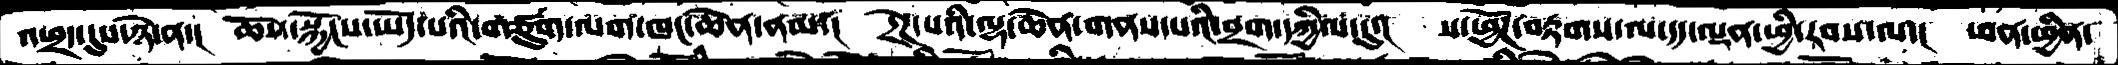འཕྲད་དུས་ཉེ་ན་།  ཆོས་སྐྱོངས་ཡོད་པའི་གཙུག་ལག་ཁང་ཆེན་ནམ་།  དྲེཌ་པའི་ལྷ་ཆེན་གནས་པའི་བྲག་དཀྱིལ་དུ་།  ས་ཕྱོཌ་བརྟགས་ལ་དད་ལྡན་ཕྱི་རབས་ལ་།  ཕན་ཕྱིན་
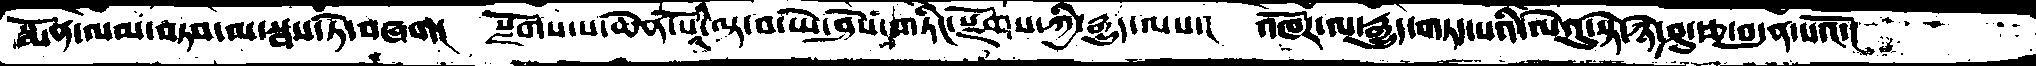སྨོན་ལམ་བཏབས་ལ་སྦས་ཏེ་བཞག།  སྫོགས་པ་ཆེན་པོའི་ལྟ་བ་ཡེ་ཤེས་གཏིང་སྫོགས་ཀྱི་རྒྱུད་ལས་།  འཁོར་ལ་རྒྱུད་གཏད་པའི་ལེའུ་སྟེ་ཉེ་ཤུ་རྩ་བདུན་པའོ་།
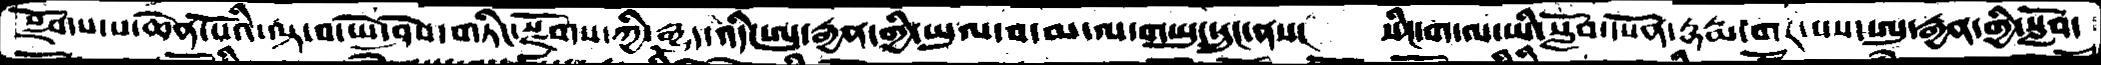སྫོགས་པ་ཆེན་པོའི་ལྟ་བ་ཡེ་ཤེས་གཏིང་སྫོགས་ཀྱི་རྒྱུད་འདི་ཨུ་རྒྱན་ཀྱི་ཡུལ་བ་མ་ལ་གཡུང་དྲུང་ནས་།  སིང་ག་ལ་ཡི་སློབ་དཔོན་དྷརྨ་གར་པས་ཨུ་རྒྱན་གྱི་སློབ་
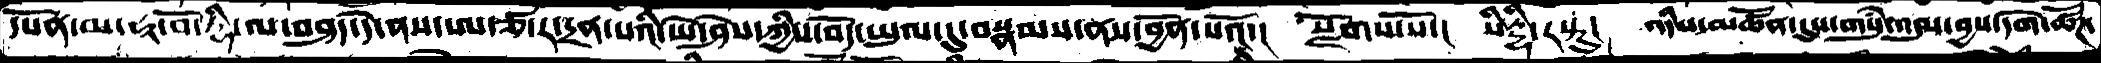དཔོན་མ་ཧཱ་བོ་དྷི་ལ་བཤད་དེ་ནས་ཨ་ཙ་ར་དྲན་པའི་ཡེ་ཤེས་ཀྱིས་བོད་ཡུལ་དུ་བསྣམས་ནས་བྱོན་པའོ་།  སྫོགས་སོ་།  སིརྡྷི་རསྟུ་།  འདིས་མཚོན་དུས་གསུཾ་འདུས་བྱས་དགེ་ཚོཌ་
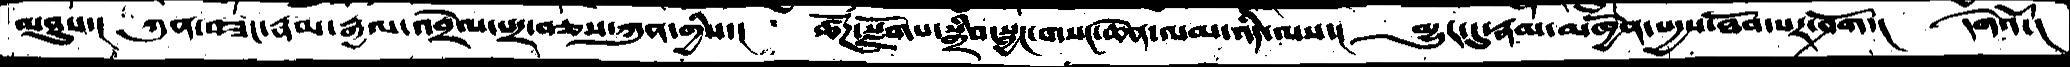མཐུས་།  ཀུན་བཟང་རྣམ་རྒྱལ་འབྲེལ་པར་བཅས་ཀུན་གྱིས་།  ཚོཌ་སྫོགས་སྒྲིབ་སྦྱང་གསང་ཆེན་ལམ་འདི་ལས་།  མྱུར་དུ་རྣམ་མཁྱེན་སདྱས་ཐོབ་པར་ཤོག་།  དགེའོ་།
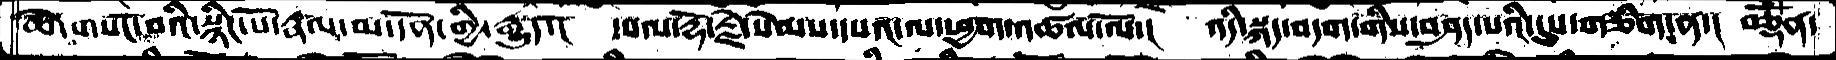ཚེ་གསང་བའི་སྙིང་པོ་རྣལ་མ་དོན་གྱི་རྒྱུད་།  དཔལ་རྡོ་རྗེ་སེམས་དཔའ་ལ་ཕྱག་འཚལ་ལོ་།  འདི་སྐད་བདག་གིས་བཤད་པའི་དུས་གཅིག་ན་།  བཅྡོཾན་
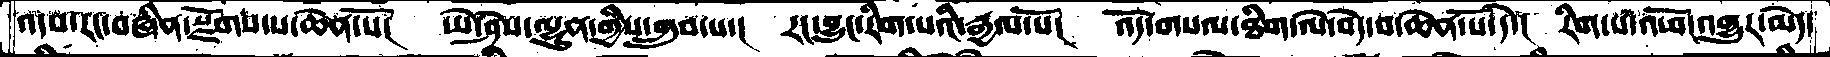འདས་རང་བཞིན་སྫོགས་པ་ཆེན་པོ།  ཡེ་ཤེས་ལྷུན་གྱིས་གྲུབ་པ་།  རང་བྱུང་རིག་པའི་རྒྱལ་པོ།  འོད་གསལ་ཐིག་ལེ་བདེ་བ་ཆེན་པོ་དེ་། རིག་པ་འཕོ་འགྱུར་མེད་
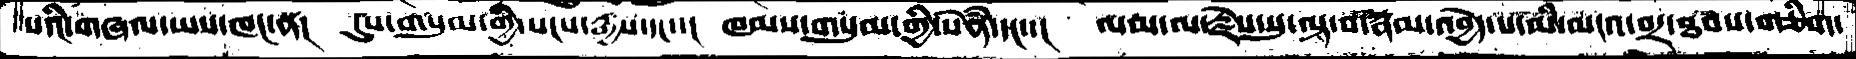པའི་གཞལ་ཡས་ཁང་ན།  དུས་གསུམ་གྱི་སངས་རྒྱས་དང་་།  ཁམས་གསུམ་གྱི་སེཾན་དང་་།  ལམ་ལ་རྗེས་སུ་ལྟ་བ་རྣམ་འབྱེད་པ་མི་མངའ་བར་ཐབས་གཅིག་
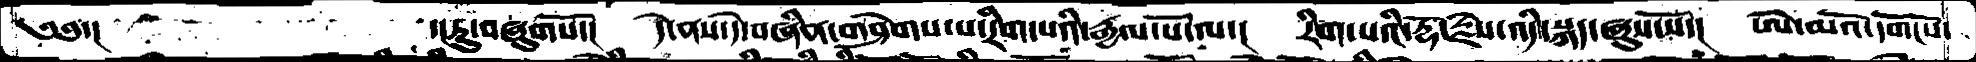༄༅་།       ་།ཏུ་བཞུགསོ་།   དེ་ནས་དེ་བཞིན་གཤེགས་པ་རིག་པའི་རྒྱལ་པོ་ལ་།   རིག་པའི་རྡོ་རྗེས་འདི་སྐད་ཞུས་སོ་།   ཨེ་མའོ་དགོངས་
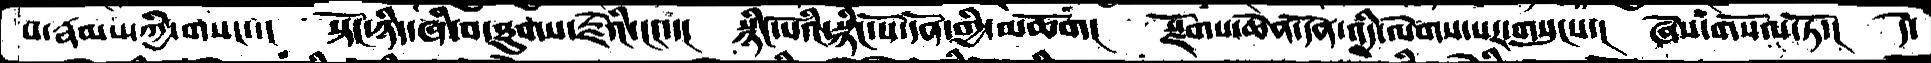པ་རྣམས་ཀྱི་གསང་་།   སྟོང་ཉིད་ཞི་བ་ཐུགས་རྗེའི་ངང་་།   སྙིང་པོའི་སྙིང་པོ་དོན་གྱི་མཆོག།   སྫོགས་ཆེན་དོན་འདི་ལེགས་པར་གསུངས་།  ཞེས་གསོལ་ཏོ་།   དེ་
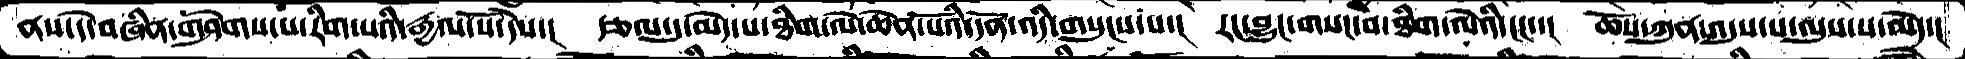ནས་དེ་བཞིན་གཤེགས་པ་རིག་པའི་རྒྱལ་པོ་དེས་།  རྩལ་དུ་མེད་པ་ཐིག་ལེ་ཆེན་པོའི་དོན་འདི་གསུངས་པ་།  རང་བྱུང་གསང་བ་ཐིག་ལེའི་ངང་་།  ཆོས་ཀུན་འདུས་པ་ལུས་པ་མེད་།
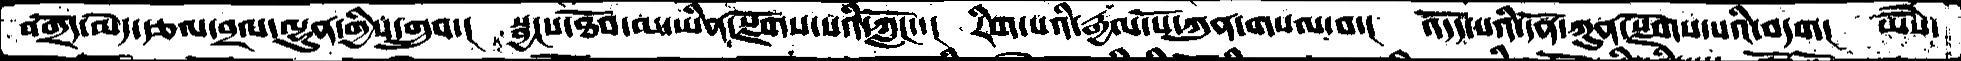བགྲོད་མེད་རྩལ་བྲལ་ལྷུན་གྱིས་གྲུབ་།  སྦྱངས་ཐོབ་མ་ཡིན་སྫོགས་པའི་ཀློང་་།   རིག་པའི་རྒྱལ་པོ་ཀུན་གསལ་བ་།  འདོད་པའི་དོན་ཀུན་སྫོགས་པའི་བདག།  ཡཻས་
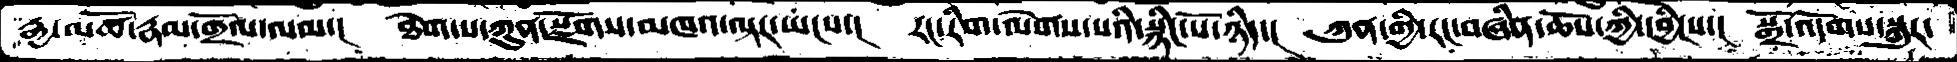རྒྱ་མཚོ་རྣམ་གྲོལ་ལམ་།  ཐེག་པ་ཀུན་སྫོགས་མཁའ་ལྟར་ཡངས་།   རང་རིག་ལེགས་པའི་སྙིང་པོ་ཉིད་།  ཀུན་གྱི་རང་བཞིན་ཆོས་ཀྱི་དབྱིངས་།  སྒྲོ་འདོགས་སྐུར་
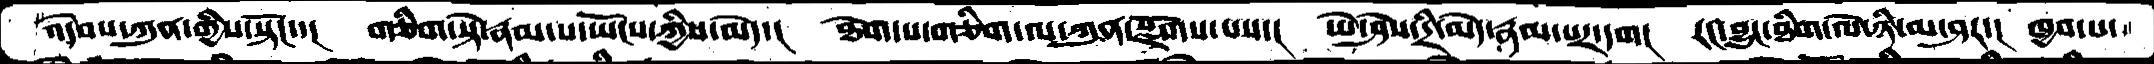འདེབས་ཀུན་གྱིས་སྟོང་་།  གཅིག་སྟེ་རྣམ་པ་ཡོངས་ཀྱིས་མེད་།  ཐེག་པ་གཅིག་ལ་ཀུན་སྫོགས་པས་།  ཡེ་ཤེས་དྲི་མེད་རྣམ་པར་དག།  རང་བྱུང་ཐིག་ལེ་ཉི་མ་ཤར་།  ཁྱབ་པ་
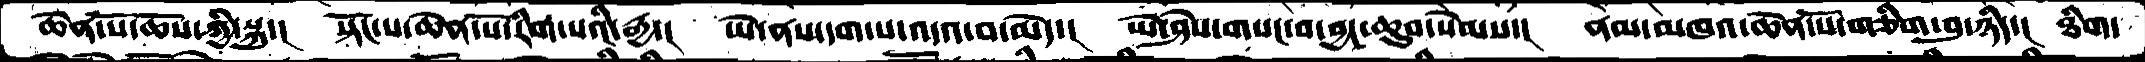ཆེན་པོ་ཆོས་ཀྱི་སྐུ་།  སྟོང་པ་ཆེན་པོ་རིག་པའི་རྒྱ་།  ཡེ་ནས་དག་པ་འདའ་བ་མེད་།  ཡེ་ཤེས་གསང་བ་བྱང་ཆུབ་སེམས་།  ནམ་མཁའ་ཆེན་པོ་གཅིག་པུ་ཉིད་།  ཐིག་
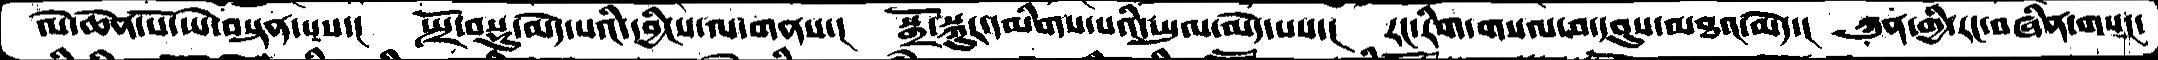ལེ་ཆེན་པོ་ཡེ་བསྟན་པས་།  སྤྲོ་བསྡུ་མེད་པའི་དབྱིངས་ལ་གནས་།  སྒྲོ་སྐུར་དམིགས་པའི་ཡུལ་མེད་པས་།  རང་རིག་གསལ་བ་དབུས་མཐའ་མེད་།   ཀུན་གྱི་རང་བཞིན་གསང་
